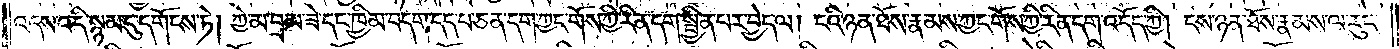འདས་འདི་སྙམ་དུ་དགོངས་ཏེ། ཀྱེ་མ་བྲམ་ཟེ་དང་ཁྱིམ་བདག་དད་པ་ཅན་དག་ཀྱང་གོས་ཀྱི་རིན་དག་སྦྱིན་པར་བྱེད་ལ། ངའི་ཉན་ཐོས་རྣམས་ཀྱང་གོས་ཀྱི་རིན་དག་འདོད་ཀྱི། ངས་ཉན་ཐོས་རྣམས་ལ་རུང་
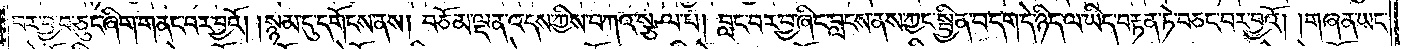བར་བྱ་བ་ཅུང་ཞིག་གནང་བར་བྱའོ། །སྙམ་དུ་དགོངས་ནས། བཅོམ་ལྡན་འདས་ཀྱིས་བཀའ་སྩལ་པ། བླང་བར་བྱ་ཞིང་བླངས་ནས་ཀྱང་སྦྱིན་བདག་དེ་ཉིད་ལ་ཡིད་བརྟན་ཏེ་བཅང་བར་བྱའོ། །གཞན་ཡང་
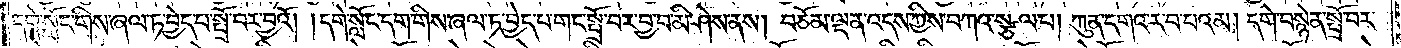དགེ་སློང་གིས་ཞལ་ཏ་བྱེད་པ་སྤྲོ་བར་བྱའོ། །དགེ་སློང་དག་གིས་ཞལ་ཏ་བྱེད་པ་གང་སྤྲོ་བར་བྱ་བ་མི་ཤེས་ནས། བཅོམ་ལྡན་འདས་ཀྱིས་བཀའ་སྩལ་པ། ཀུན་དགའ་ར་བ་པའམ། དགེ་བསྙེན་སྤྲོ་བར་
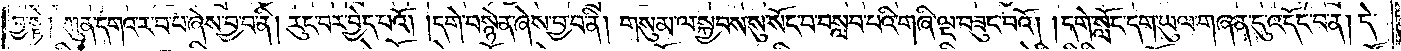བྱ་སྟེ། ཀུན་དགའ་ར་བ་པ་ཞེས་བྱ་བ་ནི། རུང་བར་བྱེད་པའོ། །དགེ་བསྙེན་ཞེས་བྱ་བ་ནི། གསུམ་ལ་སྐྱབས་སུ་སོང་བ་བསླབ་པའི་གཞི་ལྔ་བཟུང་བའོ། །དགེ་སློང་དག་ཡུལ་གཞན་དུ་འདོང་བ་ན། དེ་
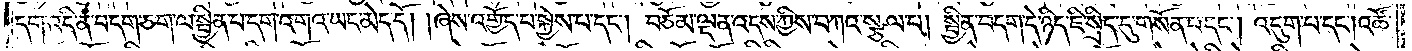དག་འདི་ན་བདག་ཅག་ལ་སྦྱིན་པ་དག་འགའ་ཡང་མེད་དོ། །ཞེས་འགྱོད་པ་སྐྱེས་པ་དང༌། བཅོམ་ལྡན་འདས་ཀྱིས་བཀའ་སྩལ་པ། སྦྱིན་བདག་དེ་ཉིད་ཇི་སྲིད་དུ་གསོན་པ་དང༌། འདུག་པ་དང༌། འཚོ་
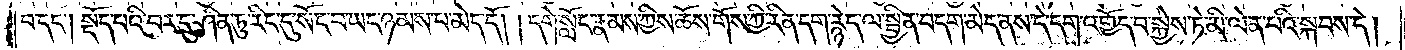བ་དང༌། སྡོད་པའི་བར་དུ་ཤིན་ཏུ་རིང་དུ་སོང་བ་ཡང་ཉམས་པ་མེད་དོ། །དགེ་སློང་རྣམས་ཀྱིས་ཆོས་གོས་ཀྱི་རིན་དག་རྙེད་ལ་སྦྱིན་བདག་མེད་ནས་དེ་དག་འགྱོད་པ་སྐྱེས་ཏེ་མི་ལེན་པའི་སྐབས་དེ།
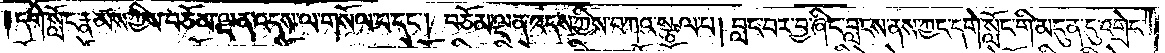དགེ་སློང་རྣམས་ཀྱིས་བཅོམ་ལྡན་འདས་ལ་གསོལ་པ་དང༌། བཅོམ་ལྡན་འདས་ཀྱིས་བཀའ་སྩལ་པ། བླང་བར་བྱ་ཞིང་བླངས་ནས་ཀྱང་དགེ་སློང་གི་མདུན་དུ་འགྲེང་
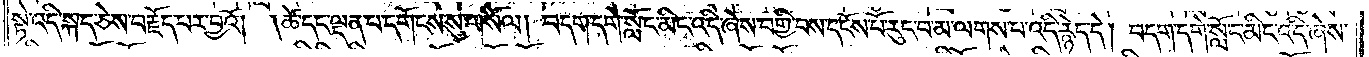སྟེ་འདི་སྐད་ཅེས་བརྗོད་པར་བྱའོ། །ཚེ་དང་ལྡན་པ་དགོངས་སུ་གསོལ། བདག་དགེ་སློང་མིང་འདི་ཞེས་བགྱི་བས་དངོས་པོ་རུང་བ་མ་ལགས་པ་འདི་རྙེད་དེ། བདག་དགེ་སློང་མིང་འདི་ཞེས་
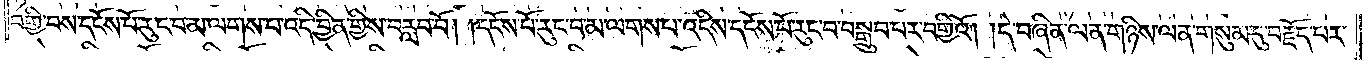བགྱི་བས་དངོས་པོ་རུང་བ་མ་ལགས་པ་འདི་བྱིན་གྱིས་བརླབ་བོ། །དངོས་པོ་རུང་བ་མ་ལགས་པ་འདིས་དངོས་པོ་རུང་བ་བསྒྲུབ་པར་བགྱིའོ། །དེ་བཞིན་ལན་གཉིས་ལན་གསུམ་དུ་བརྗོད་པར་
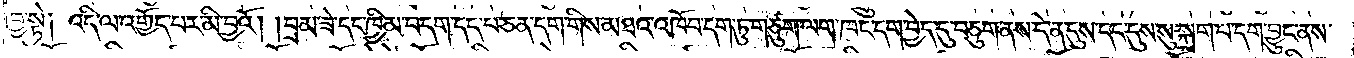བྱ་སྟེ། འདི་ལ་འགྱོད་པར་མི་བྱའོ། །བྲམ་ཟེ་དང་ཁྱིམ་བདག་དད་པ་ཅན་དག་གིས་མཐའ་འཁོབ་དག་ཏུ་གཙུག་ལག་ཁང་དག་བྱེད་དུ་བཅུག་ནས་དེ་ན་དུས་དང་དུས་སུ་སྐྲག་པ་དག་བྱུང་ནས་
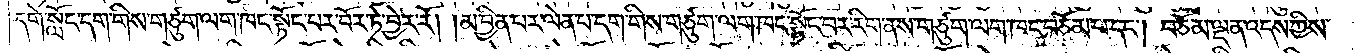དགེ་སློང་དག་གིས་གཙུག་ལག་ཁང་སྟོང་པར་བོར་ཏེ་བྱེར་རོ། །མ་བྱིན་པར་ལེན་པ་དག་གིས་གཙུག་ལག་ཁང་སྟོང་པར་རིག་ནས་གཙུག་ལག་ཁང་བཅོམ་པ་དང༌། བཅོམ་ལྡན་འདས་ཀྱིས་
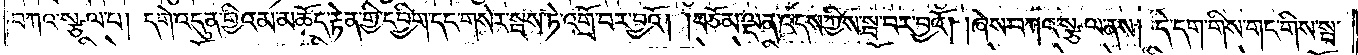བཀའ་སྩལ་པ། དགེ་འདུན་གྱིའམ་མཆོད་རྟེན་གྱི་དབྱིག་དང་གསེར་སྦས་ཏེ་འགྲོ་བར་བྱའོ། །བཅོམ་ལྡན་འདས་ཀྱིས་སྦ་བར་བྱའོ། །ཞེས་བཀའ་སྩལ་ནས། དེ་དག་གིས་གང་གིས་སྦ་
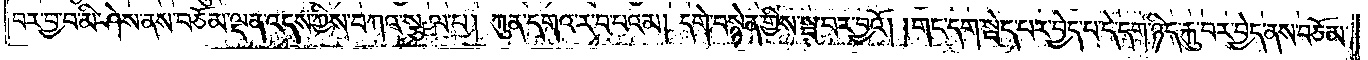པར་བྱ་བ་མི་ཤེས་ནས་བཅོམ་ལྡན་འདས་ཀྱིས་བཀའ་སྩལ་པ། ཀུན་དགའ་ར་བ་པའམ། དགེ་བསྙེན་གྱིས་སྦ་བར་བྱའོ། །གང་དག་སྦེད་པར་བྱེད་པ་དེ་དག་ཉིད་རྐུ་བར་བྱེད་ནས་བཅོམ་
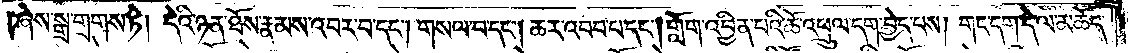ཞེས་སྒྲ་གྲགས་ཏེ། དེའི་ཉན་ཐོས་རྣམས་འབར་བ་དང༌། གསལ་བ་དང༌། ཆར་འབབ་པ་དང༌། གློག་འབྱིན་པའི་ཆོ་འཕྲུལ་དག་ཕྱེད་པས། གང་དག་དེ་ལ་མཆོད་
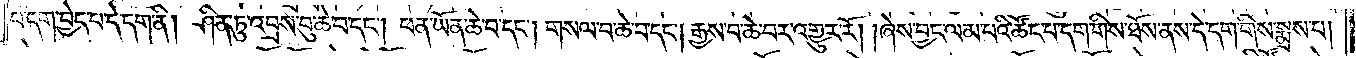པ་དག་བྱེད་པ་དེ་དག་ནི། ཤིན་ཏུ་འབྲས་བུ་ཆེ་བ་དང༌། ཕན་ཡོན་ཆེ་བ་དང༌། གསལ་བ་ཆེ་བ་དང༌། རྒྱས་པ་ཆེ་བར་འགྱུར་རོ། །ཞེས་བྱང་ལམ་པའི་ཚོང་པ་དག་གིས་ཐོས་ནས་དེ་དག་གིས་སྨྲས་པ།
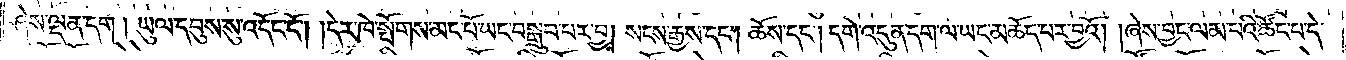ཤེས་ལྡན་དག། ཡུལ་དབུས་སུ་འདོང་ངོ༌། །དེར་ཁེ་སྤོགས་མང་པོ་ཡང་བསྒྲུབ་པར་བྱ། སངས་རྒྱས་དང༌། ཆོས་དང༌། དགེ་འདུན་དག་ལ་ཡང་མཆོད་པར་བྱའོ། །ཞེས་བྱང་ལམ་པའི་ཚོང་པ་དེ་
